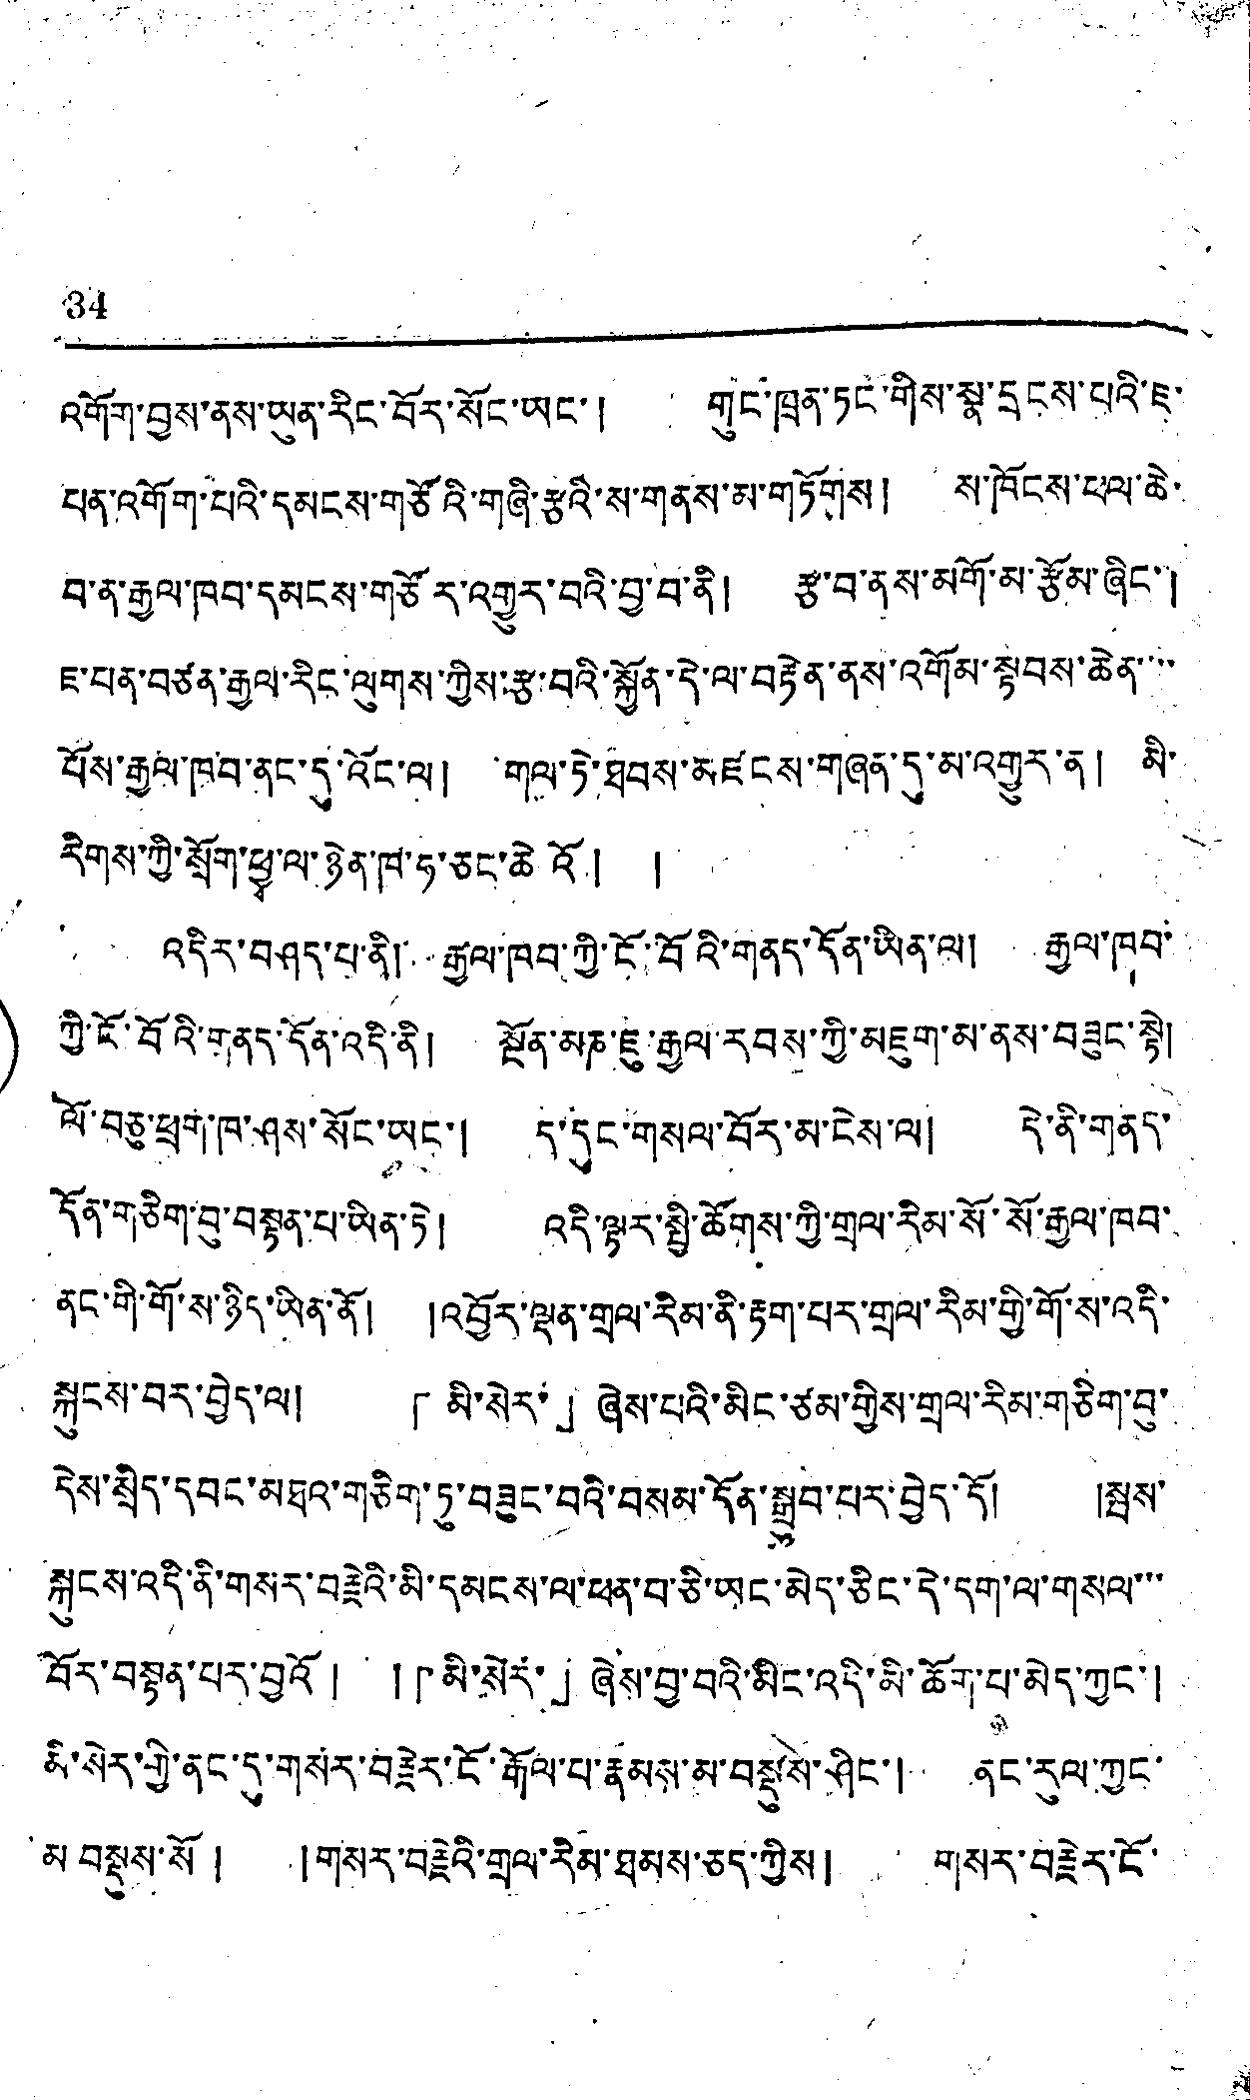34
འགོག་བྱས་ནས་ཡུན་རིང་བོར་སོང་ཡང་། གུང་ཁྲན་ཏང་གིས་སྣ་དྲངས་པའི་ཇ་
པན་འགོག་པའི་དམངས་གཙོའི་གཞི་རྩའི་ས་གནས་མ་གཏོགས། ས་ཁོངས་ཕལ་ཆེ་
བ་ན་རྒྱལ་ཁབ་དམངས་གཙོར་འགྱུར་བའི་བྱ་བ་ནི། རྩ་བ་ནས་མགོ་མ་རྩོམ་ཞིང་།
ཇ་པན་བཙན་རྒྱལ་རིང་ལུས་ཀྱིས་རྩ་བའི་སྐྱོན་དེ་ལ་བརྟེན་ནས་འགོམ་སྟབས་ཆེན་་་་
པོས་རྒྱལ་ཁབ་ནང་དུ་འོང་ལ། གལ་ཏེ་ཐབས་མཛངས་གཞན་དུ་མ་འགྱུར་ན། མི་
རིགས་ཀྱི་སྲོག་ཕྱྭ་ལ་ཉེན་ཁ་ཧ་ཅང་ཆེའོ། །
འདིར་བཤད་པ་ནི། རྒྱལ་ཁབ་ཀྱི་ངོ་བོའི་གནད་དོན་ཡིན་ལ། རྒྱལ་ཁབ་
ཀྱི་ངོ་བོའི་གནད་དོན་འདི་ནི། སྔོན་མཎ་ཇུ་རྒྱལ་རབས་ཀྱི་མཇུག་མ་ནས་བཟུང་སྟེ།
ལོ་བཅུ་ཕྲག་ཁ་ཤས་སོང་ཡང་། ད་དུང་གསལ་བོར་མ་ངེས་ལ། དེ་ནི་གནད་
དོན་གཅིག་བུ་བསྟན་པ་ཡིན་ཏེ། འདི་ལྟར་སྤྱི་ཚོགས་ཀྱི་གྲལ་རིམ་སོ་སོ་རྒྱལ་ཁབ་
ནང་གི་གོ་ས་ཉིད་ཡིན་ནོ། །འབྱོར་ལྡན་གྲལ་རིམ་ནི་རྟག་པར་གྲལ་རིམ་གྱི་གོ་ས་འདི་
སྐངས་བར་བྱེད་ལ། 「མི་སེར་」ཞེས་པའི་མིང་ཙམ་གྱིས་གྲལ་རིམ་གཅིག་བུ་
དེས་སྲིད་དབང་མཐའ་གཅིག་ཏུ་བཟུང་བའི་བསམ་དོན་སྒྲུབ་པར་བྱེད་དོ། །སྦས་
སྐུངས་འདི་ནི་གསར་བརྗེའི་མི་དམངས་ལ་ཕན་བ་ཅི་ཡང་མེད་ཅིང་དེ་དག་ལ་གསལ་་་
བོར་བསྟན་པར་བྱའོ། །「མི་སེར་」ཞེས་བྱ་བའི་མིང་འདི་མི་ཆོག་པ་མེད་ཀྱང་།
མི་སེར་གྱི་ནང་དུ་གསར་བརྗེར་ངོ་རྒོལ་པ་རྣམས་མ་བསྡུས་ཤིང་། ནང་རུལ་ཀྱང་
མ་བསྡུས་སོ། །གསར་བརྗེའི་གྲལ་རིམ་ཐམས་ཅད་ཀྱིས། གསར་བརྗེར་ངོ་
